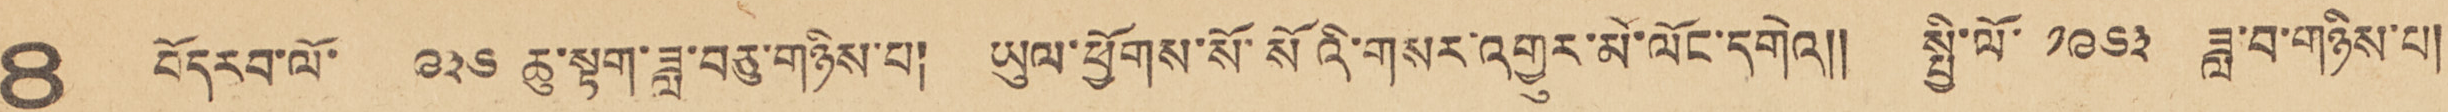8 བོད རབ་ལོ་ ༩༣༦ ཆུ་སྟག་ཟླ་བཅུ་གཉིས་པ། ཡུལ་ཕྱོགས་སོ་སོའི་གསར་འགྱུར་མེ་ལོང་དགེའོ།། སྤྱི་ལོ་ ༡༩༦༣ ཟླ་བ་གཉིས་པ།
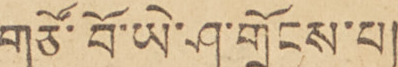གཙོ་བོ་ཡེ་ཤུ་གྲོངས་པ།
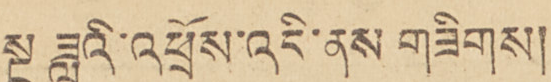སྔ ཟླའི་འཕྲོས་འདི་ནས་གཟིགས།
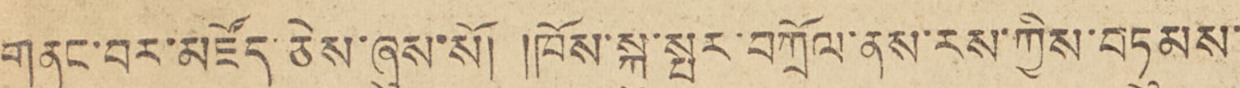གནང་བར་མཛོད་ཅེས་ཞུས་སོ། །ཁོས་སྐུ་སྤར་བཀྲོལ་ནས་རས་ཀྱིས་བཏུམས་
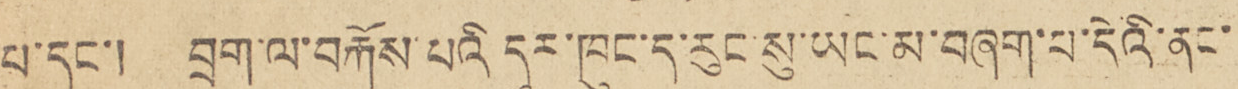པ་དང་། བྲག་ལ་བརྐོས་པའི དུང་ཁུང་ད་རུང་སུ་ཡང་མ་བཞག་པ་དེའི་ནང་
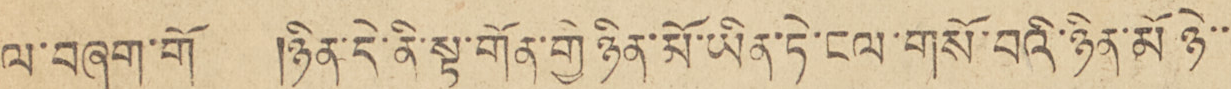ལ་བཞག་གོ །ཉིན་དེ་ནི་སྟ་གོན་གྱི་ཉིན་མོ་ཡིན་ཏེ་ངལ་གསོ་བའི་ཉིན་མོ ཉེ་་
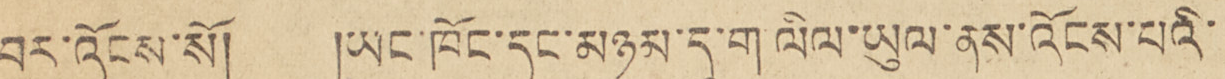བར་འོངས་སོ། །ཡང་ཁོང་དང་མཉམ་དུ་ག་ལིལ་ཡུལ་ནས་ལོངས་པའི་
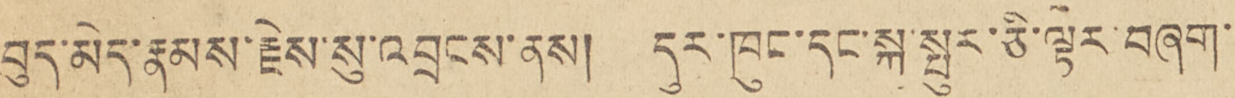བུད་མེད་རྣམས་རྗེས་སུ་འབྲངས་ནས། དུར་ཁུང་དང་སྐ་སྤུར་ཅི་ལྟར་བཞག་
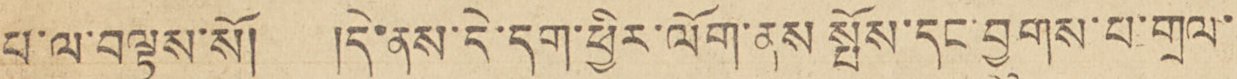པ་ལ་བལྟས་སོ། །དེ་ནས་དེ་དག་ཕྱིར་ལོག་ནས་སྤོས་དང་བྱུགས་པ་གྲལ་
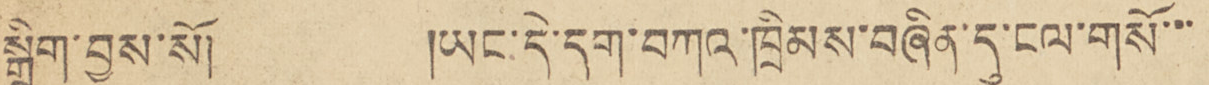སྒྲིག་བྱས་སོ། །ཡང་དེ་དག་བཀའ་ཁྲིམས་བཞིན་དུ་ངལ་གསོ་་་
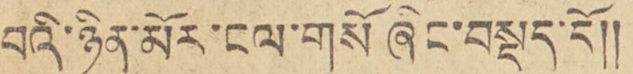བའི་ཉིན་མོར་ངལ་གསོ ཞིང་བསྡད་དོ།།
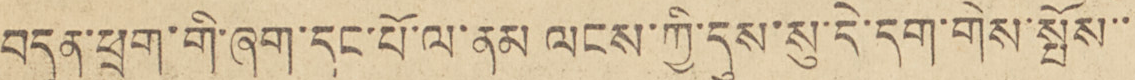བདུན་ཕྲག་གི་ཞག་དང་པོ་ལ་ནམ ལངས་ཀྱི་དུས་སུ་དེ་དག་གིས་སྤོས་་
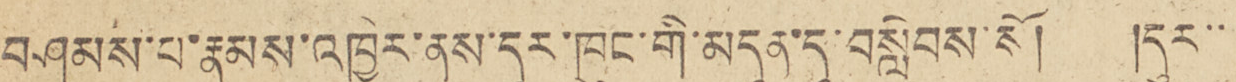བཤམས་པ་རྣམས་འཁྱེར་ན་དུར་ཁུང་གི་མདུན་དུ་བསླེབས་སོ། །དུར་་
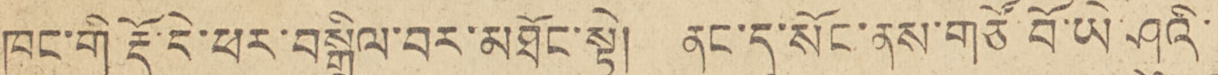ཁུང་གི རྡོ་དེ་ཕར་བསྒྲིལ་བར་མཐོང་སྟེ། ནང་དུ་སོང་ནས་གཙོ བོ་ཡེ་ཤུའི་
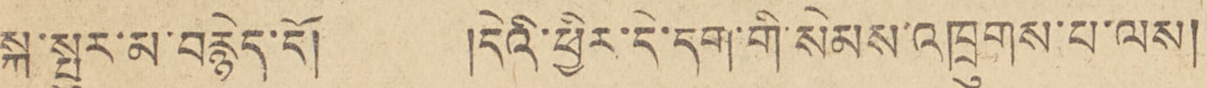སྐུ་སྤུར་མ་བརྙེད་དོ། །དེའི་ཕྱིར་དེ་དག་གི་སེམས་འཁྲུགས་པ་ལས།
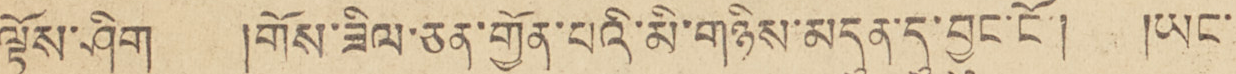ལྟོས་ཤིག །གོས་ཟིལ་ཅན་གྱོན་པའི་མི་གཉིས་མདུན་དུ་བྱུང་ངོ་། །ཡང་
